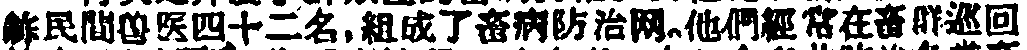練民間兽医四十二名，組成了畜病防治网。他們經常在畜群巡回
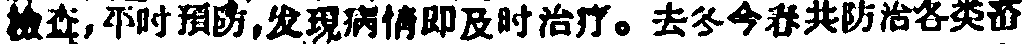檢查，平时預防，发現病情即及时治疗。去冬今春共防治各类畜
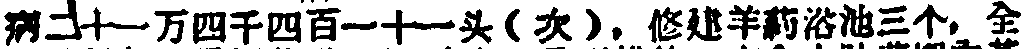病二十一万四千四百一十一头（次），修建羊葯浴池三个，全
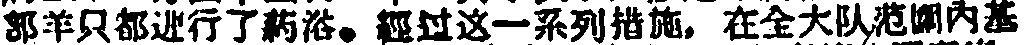部羊只都进行了葯浴。經过这一系列措施，在全大队范围內基
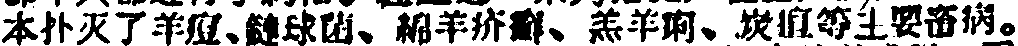本扑灭了羊痘、鏈球菌、綿羊疥癬、羔羊疽、炭疽等主要畜病。
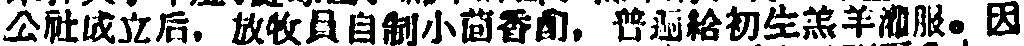公社成立后，放牧員自制小茴香酊，普遍給初生羔羊灌服。因
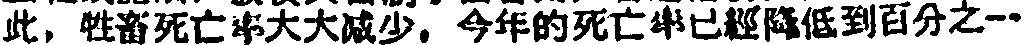此，牲畜死亡率大大減少，今年的死亡率已經降低到百分之一
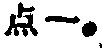点一。
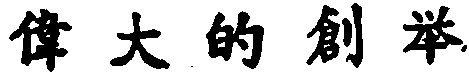偉 大 的 創 举
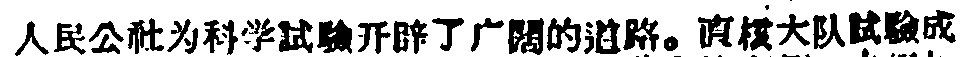人民公社为科学試驗开辟了广闊的道路。直核大队試驗成
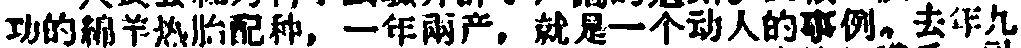功的綿羊批热胎配种，一年两产，就是一个动人的事例。去年九
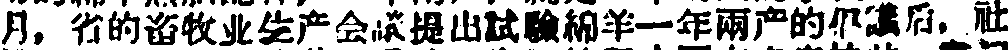月。省的畜牧业生产会議提出試驗綿羊一年两产的提議后，社
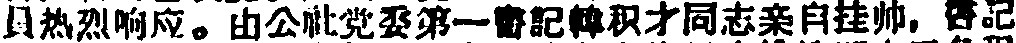員热烈响应。由公社党委第一書記韩积才同志亲自挂帅，書記
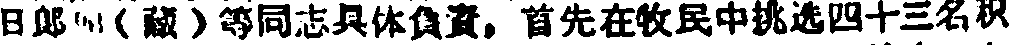日郎 （藏）等同志具体負責，首先在牧民中都挑选四十三名积
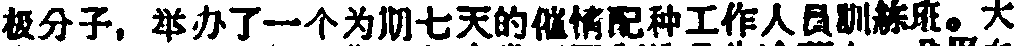极分子，举办了一个为期七天的催情配种工作人員訓練班。大
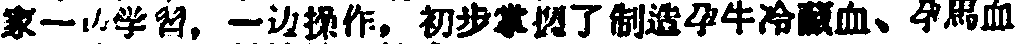家一边学習，一边操作，初步掌握了制造孕牛冷藏血、孕馬血
